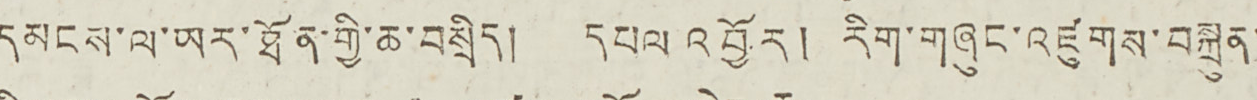དམངས་ལ་ཡར་ཐོན་གྱི་ཆ་བསྲིད། དཔལ འབྱོར། རིག་གཞུང་འཛུགས་བསྐྲུན་
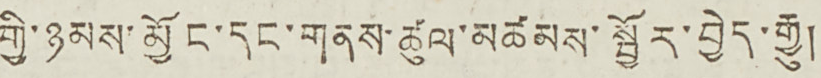གྱི་ཉམས་མྱོང་དང་གནས་ཚུལ་མཚམས་སྦྱོར་བྱེད་རྒྱུ།
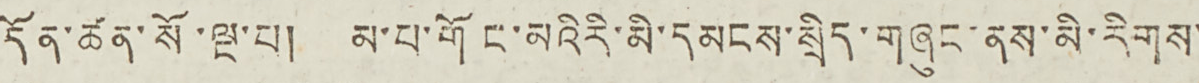དོན་ཚན་སོ་ལྔ་པ། མ་པ་གོང་མའི རི་མི་དམངས་སྲིད་གཞུང་ནས་མི་རིགས་
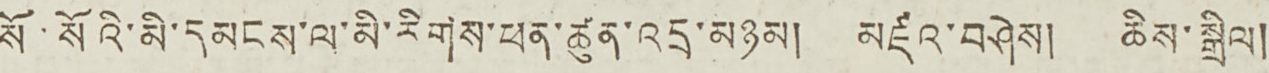སོ་སོའི་མི་དམངས་ལ་མི་རིགས་ཕན་ཚུན་འདྲ་མཉམ། མཛའ་བཤེས། ཆིས་སྒྲིལ།
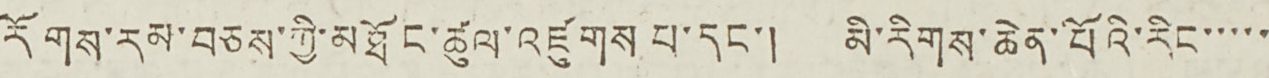རོགས་རམ་བཅས་ཀྱི་མཐོང་ཚུལ་འཛུགས པ་དང་། མི་རིགས་ཆེན་པོའི་རིང་་་་་
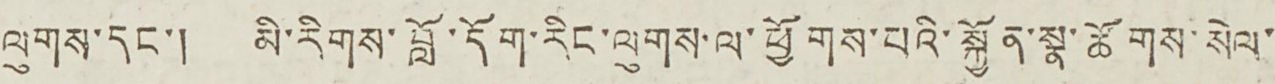ལུགས་དང་། མི་རིགས་བློ་དོག་རིང་ལུགས་ལ་ཕྱོགས་པའི་སྐྱོན་སྣ་ཚོགས་སེལ་
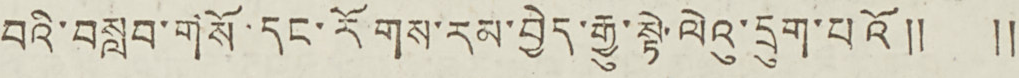བའི་བསླབ་གསོ་དང་རོགས་རམ་བྱེད་རྒྱུ་སྟེ་ལེའུ་དྲུག་པའོ༎ ༎
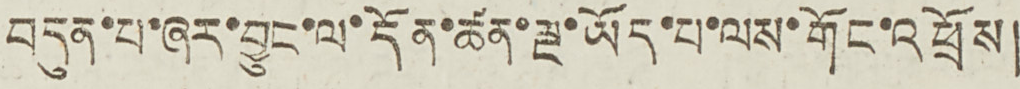བདུན་པ་ཞར་བྱུང་ལ་དོན་ཚན་ལྔ་ཡོད་པ་ལས་གོང་འཕྲོས།
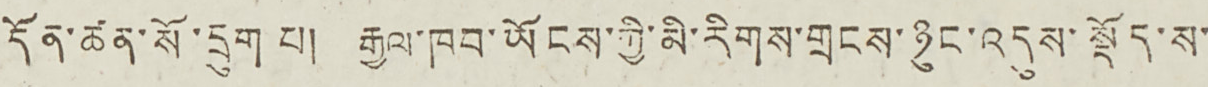དོན་ཚན་སོ་དྲུག པ། རྒྱལ་ཁབ་ཡོངས་ཀྱི་མི་རིགས་གྲངས་ཉུང་འདུས་སྡོད་ས་
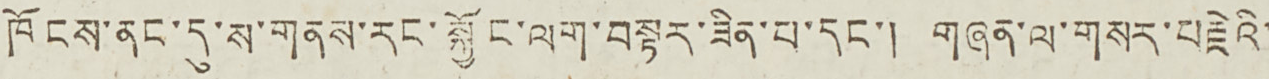ཁོངས་ནང་དུ་ས་གནས་རང་སྐྱོང་ལག་བསྟར་ཟིན་པ་དང་། གཞན་ལ་གསར་བརྗེའི་
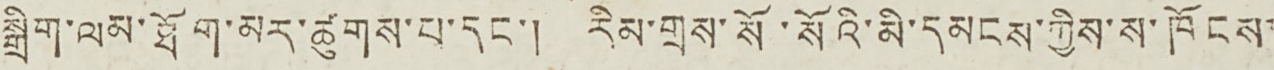སྒྲིག་ལམ་ཐོག་མར་ཚུགས་པ་དང་། རིམ་གྲས་སོ་སོའི་མི་དམངས་ཀྱིས་ས་ཁོངས་
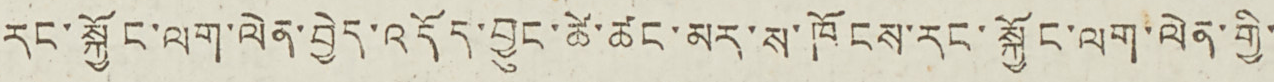རང་སྐྱོང་ལག་ལེན་བྱེད་འདོད་བྱུང་ཚེ་ཚང་མར་ས་ཁོངས་རང་སྐྱོང་ལག་ལེན་གྱི་
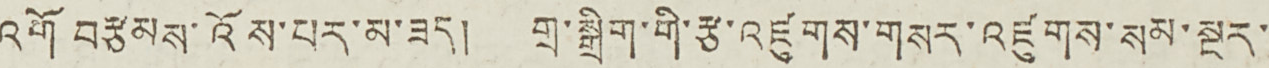འགོ བརྩམས་འོས་པར་མ་ཟད། གྲ་སྒྲིག་གི་རྩ་འཛུགས་གསར་འཛུགས་སམ་སྔར་
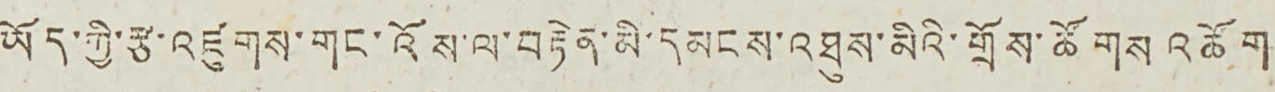ཡོད་ཀྱི་རྩ་འཛུགས་གང་འོས་ལ་བརྟེན་མི་དམངས་འཐུས་མིའི་གྲོས་ཚོགས འཚོག
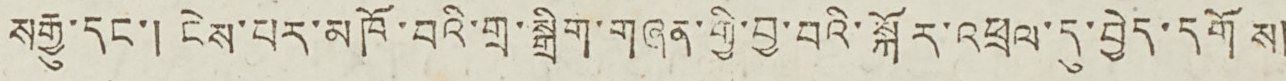སརྒྱུ་དང་། ངེས་པར་མཁོ་བའི་གྲ་སྒྲིག་གཞན་གྱི་བྱ་བའི་སྐོར་འཕྲལ་དུ་བྱེད་དགོས།
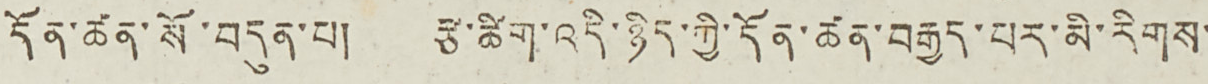དོན་ཚན་སོ་བདུན་པ། རྩ་ཚིག་འདི་ཉིད་གྱི་དོན་ཚན་བརྒྱད་པར་མི་རིགས་
